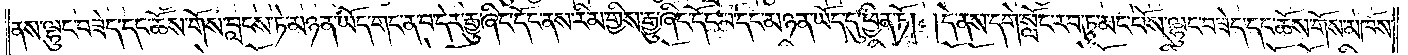ནས་ལྷུང་བཟེད་དང་ཆོས་གོས་བླངས་ཏེ་མཉན་ཡོད་གང་ན་བ་དེར་རྒྱུ་ཞིང་དོང་ནས་རིམ་གྱིས་རྒྱུ་ཞིང་དོང་བ་དང་མཉན་ཡོད་དུ་ཕྱིན་ཏོ། །དེ་ནས་དགེ་སློང་རབ་ཏུ་མང་པོས་ལྷུང་བཟེད་དང་ཆོས་གོས་མཁོས་
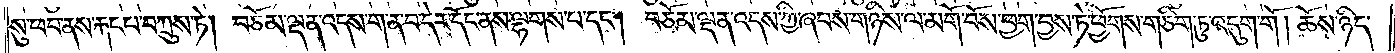སུ་ཕབ་ནས་རྐང་པ་བཀྲུས་ཏེ། བཅོམ་ལྡན་འདས་ག་ན་བ་དེར་དོང་ནས་ལྷགས་པ་དང༌། བཅོམ་ལྡན་འདས་ཀྱི་ཞབས་གཉིས་ལ་མགོ་བོས་ཕྱག་བྱས་ཏེ་ཕྱོགས་གཅིག་ཏུ་འདུག་གོ །ཆོས་ཉིད་
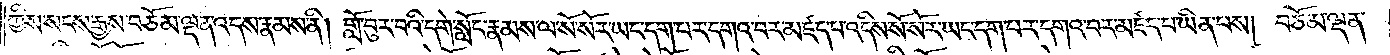ཀྱིས་སངས་རྒྱས་བཅོམ་ལྡན་འདས་རྣམས་ནི། གློ་བུར་བའི་དགེ་སློང་རྣམས་ལ་སོ་སོར་ཡང་དག་པར་དགའ་བར་མཛད་པའི་འདིས་སོ་སོར་ཡང་དག་པར་དགའ་བར་མཛད་པ་ཡིན་པས། བཅོམ་ལྡན་
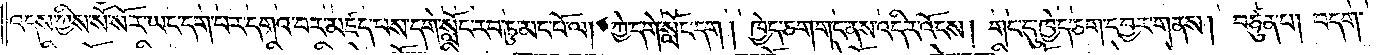འདས་ཀྱིས་སོ་སོར་ཡང་དག་པར་དགའ་བར་མཛད་པས་དགེ་སློང་རབ་ཏུ་མང་པོ་ལ། ཀྱེ་དགེ་སློང་དག །ཁྱེད་ཅག་གང་ནས་འདིར་འོངས། གང་དུ་ཁྱེད་ཅག་དབྱར་གནས། བཙུན་པ། བདག་
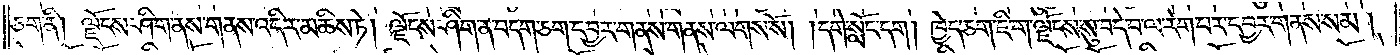ཅག་ནི། ལྗོངས་ཤིག་ནས་གནས་འདིར་མཆིས་ཏེ། ལྗོངས་ཤིག་ན་བདག་ཅག་དབྱར་གནས་གནས་ལགས་སོ། །དགེ་སློང་དག །ཁྱེད་ཅག་ཇི་ག་ལྗོངས་སུ་བདེ་བ་ལ་རེག་པར་དབྱར་གནས་སམ།
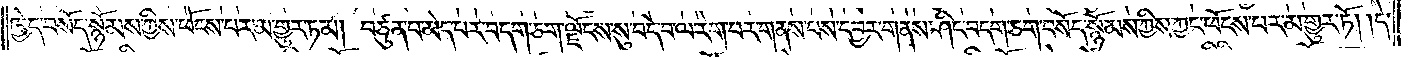ཁྱེད་བསོད་སྙོམས་ཀྱིས་ཕོངས་པར་མ་གྱུར་ཏམ། བཙུན་པ་མེད་པར་བདག་ཅག་ལྗོངས་སུ་བདེ་བ་ལ་རེག་པར་གནས་པས་དབྱར་གནས་ཤིང་བདག་ཅག་བསོད་སྙོམས་ཀྱིས་ཀྱང་ཕོངས་པར་མ་གྱུར་ཏོ། །དེ་
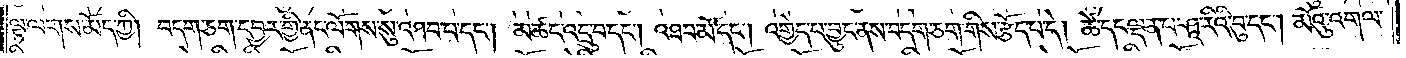ལྟ་ལགས་མོད་ཀྱི། བདག་ཅག་དབྱར་གྱི་ནང་ལོགས་སུ་འཐབ་པ་དང༌། མཚང་འདྲུ་བ་དང༌། འཐབ་མོ་དང༌། འགྱེད་པ་བྱུང་ནས་བདག་ཅག་གིས་རྩོད་པ་དེ། ཚེ་དང་ལྡན་པ་ཤཱ་རིའི་བུ་དང༌། མོའུ་འགལ་
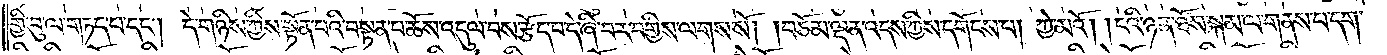གྱི་བུ་ལ་གཏད་པ་དང༌། དེ་གཉིས་ཀྱིས་སྟོན་པའི་བསྟན་པ་ཆོས་འདུལ་བས་རྩོད་པ་དེ་ཞི་བར་བགྱིས་ལགས་སོ། །བཅོམ་ལྡན་འདས་ཀྱིས་དགོངས་པ། ཀྱེ་མའོ། །ངའི་ཉན་ཐོས་སྐམ་ལ་གནས་པ་དག་
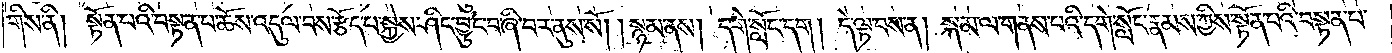གིས་ནི། སྟོན་པའི་བསྟན་པ་ཆོས་འདུལ་བས་རྩོད་པ་སྐྱེས་ཤིང་བྱུང་བ་ཞི་བར་ནུས་སོ། །སྙམ་ནས། དགེ་སློང་དག །དེ་ལྟ་བས་ན། སྐམ་ལ་གནས་པའི་དགེ་སློང་རྣམས་ཀྱིས་སྟོན་པའི་བསྟན་པ་
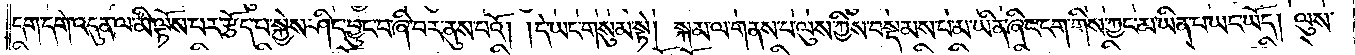དག་དགེ་འདུན་ལ་མི་ལྟོས་པར་རྩོད་པ་སྐྱེས་ཤིང་བྱུང་བ་ཞི་བར་ནུས་པའོ། །དེ་ཡང་གསུམ་སྟེ། སྐམ་ལ་གནས་པ་ལུས་ཀྱིས་བསྡམས་པ་མ་ཡིན་ཞིང་ངག་གིས་ཀྱང་མ་ཡིན་པ་ཡང་ཡོད། ལུས་
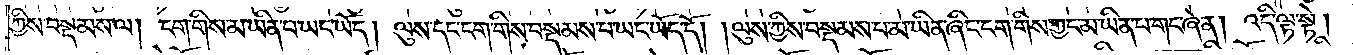ཀྱིས་བསྡམས་ལ། ངག་གིས་མ་ཡིན་པ་ཡང་ཡོད། ལུས་དང་ངག་གིས་བསྡམས་པ་ཡང་ཡོད་དོ། །ལུས་ཀྱིས་བསྡམས་པ་མ་ཡིན་ཞིང་ངག་གིས་ཀྱང་མ་ཡིན་པ་གང་ཞེ་ན། འདི་ལྟ་སྟེ།
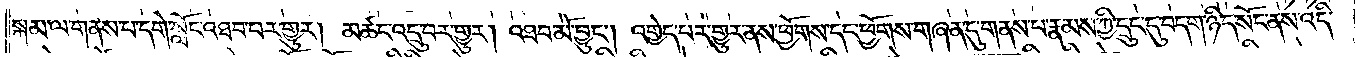སྐམ་ལ་གནས་པ་དགེ་སློང་འཐབ་པར་གྱུར། མཚང་འདྲུ་བར་གྱུར། འཐབ་མོ་བྱུང༌། །འགྱེད་པར་གྱུར་ནས་ཕྱོགས་དང་ཕྱོགས་གཞན་དུ་གནས་པ་རྣམས་ཀྱི་དྲུང་དུ་བདག་ཉིད་སོང་ནས་འདི་
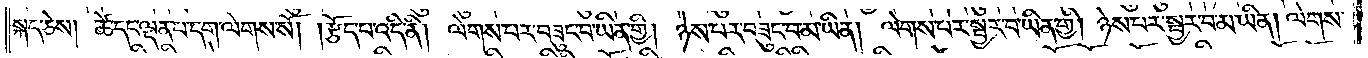སྐད་ཅེས། ཚེ་དང་ལྡན་པ་དག་ལེགས་སོ། །རྩོད་པ་འདི་ནི། ལེགས་པར་བཟུང་བ་ཡིན་གྱི། ཉེས་པར་བཟུང་བ་མ་ཡིན། ལེགས་པར་སྦྱར་བ་ཡིན་གྱི། ཉེས་པར་སྦྱར་བ་མ་ཡིན། ལེགས་
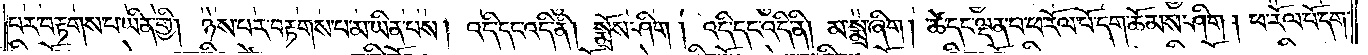པར་བརྟགས་པ་ཡིན་གྱི། ཉེས་པར་བརྟགས་པ་མ་ཡིན་པས། འདི་དང་འདི་ནི། སྨྲོས་ཤིག །འདི་དང་འདི་ནི། མ་སྨྲ་ཞིག། ཚེ་དང་ལྡན་པ་ཕ་རོལ་པོ་དག་ཆོམས་ཤིག །ཕ་རོལ་པོ་དག་
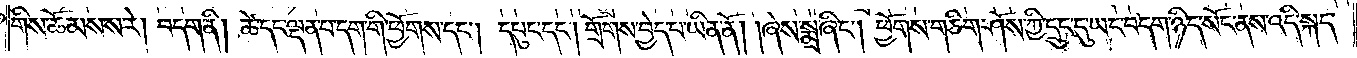གིས་ཆོམས་ས་རེ། བདག་ནི། ཚེ་དང་ལྡན་པ་དག་གི་ཕྱོགས་དང༌། དཔུང་དང༌། གྲོགས་བྱེད་པ་ཡིན་ནོ། །ཞེས་སྨྲ་ཞིང༌། ཕྱོགས་གཅིག་ཤོས་ཀྱི་དྲུང་དུ་ཡང་བདག་ཉིད་སོང་ནས་འདི་སྐད་
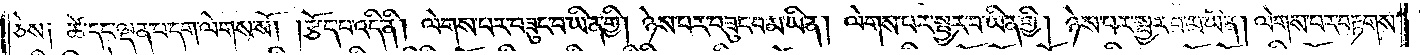ཅེས། ཚེ་དང་ལྡན་པ་དག་ལེགས་སོ། །རྩོད་པ་འདི་ནི། ལེགས་པར་བཟུང་བ་ཡིན་གྱི། ཉེས་པར་བཟུང་བ་མ་ཡིན། ལེགས་པར་སྦྱར་བ་ཡིན་གྱི། ཉེས་པར་སྦྱར་བ་མ་ཡིན། ལེགས་པར་བརྟགས་
